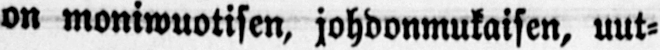on moniwuotisen, johdonmukaisen, uut-
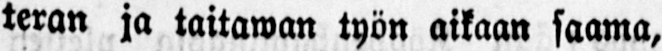teran ja taitawan työn aikaan saama,
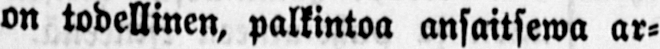on todellinen, palkintoa ansaitsewa ar-
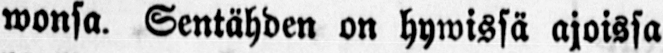wonsa. Sentähden on hywissä ajoissa
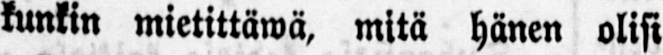kunkin mietittäwä, mitä hänen olisi
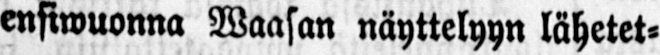ensiwuonna Waasan näyttelyyn lähetet-
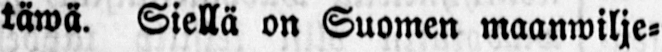täwä. Siellä on Suomen maanwilje-
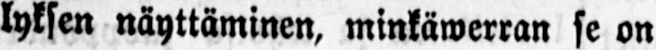lyksen näyttäminen, minkäwerran se on
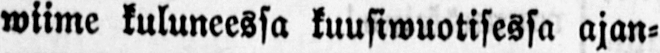wiime kuluneessa kuusiwuotisessa ajan-
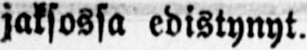jaksossa edistynyt.
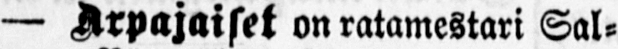— Arpajaiset on ratamestari Sal-
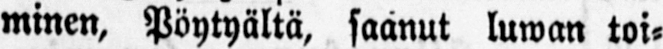minen, Pöytyältä, saanut luwan toi-
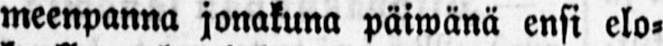meenpanna jonakuna päiwänä ensi elo-
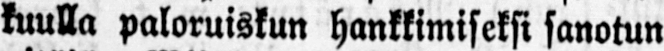kuulla paloruiskun hankkimiseksi sanotun
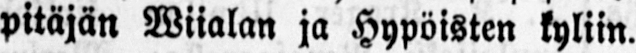pitäjän Wiialan ja Hypöisten kyliin.
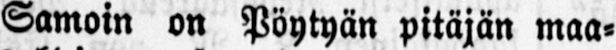Samoin on Pöytyän pitäjän maa-
